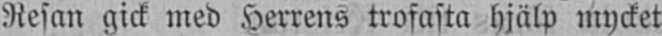Resan gick med Herrens trofasta hjälp mycket
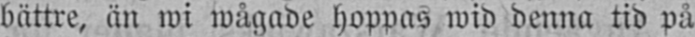bättre, än wi wågade hoppas wid denna tid på
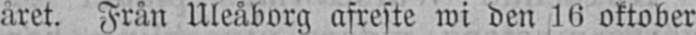året. Från Uleåborg afreste wi den 16 oktober
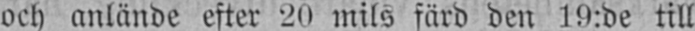och anlände efter 20 mils färd den 19:de till
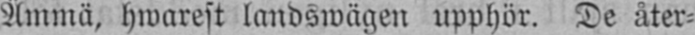Ämmä, hwarest landswägen upphör. De åter-
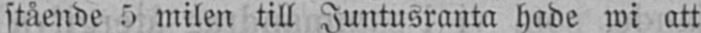stående 5 milen till Juntusranta hade wi att
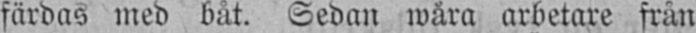färdas med båt. Sedan wåra arbetare från
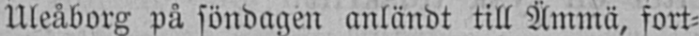Uleåborg på söndagen anländt till Ämmä, fort-
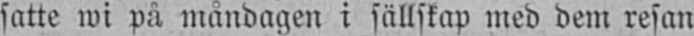satte wi på måndagen i sällskap med dem resan
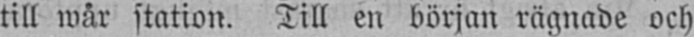till wår station. Till en början rägnade och
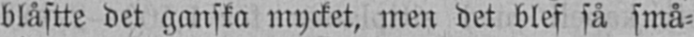blåstte det ganska mycket, men det blef så små-
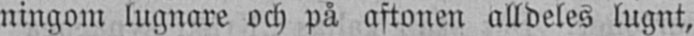ningom lugnare och på aftonen alldeles lugnt,
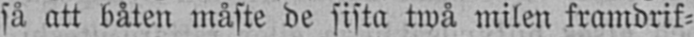så att båten måste de sista twå milen framdrif-
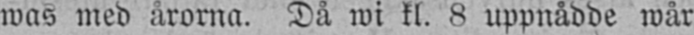was med årorna. Då wi kl. 8 uppnådde wår
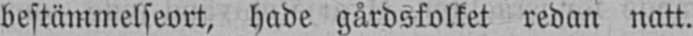bestämmelseort, hade gårdsfolket redan natt.
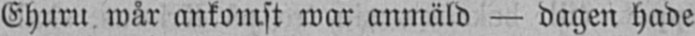Ehuru wår ankomst war anmäld — dagen hade
